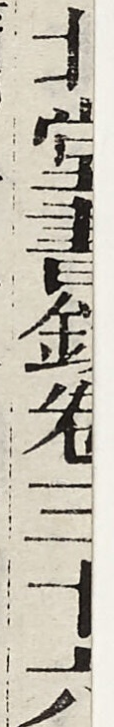北堂書鈔卷第三十六
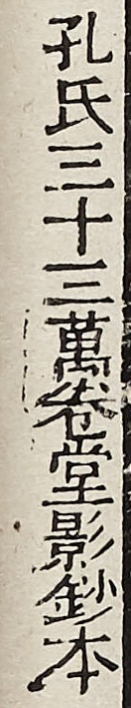孔氏三十三萬卷堂影鈔本
